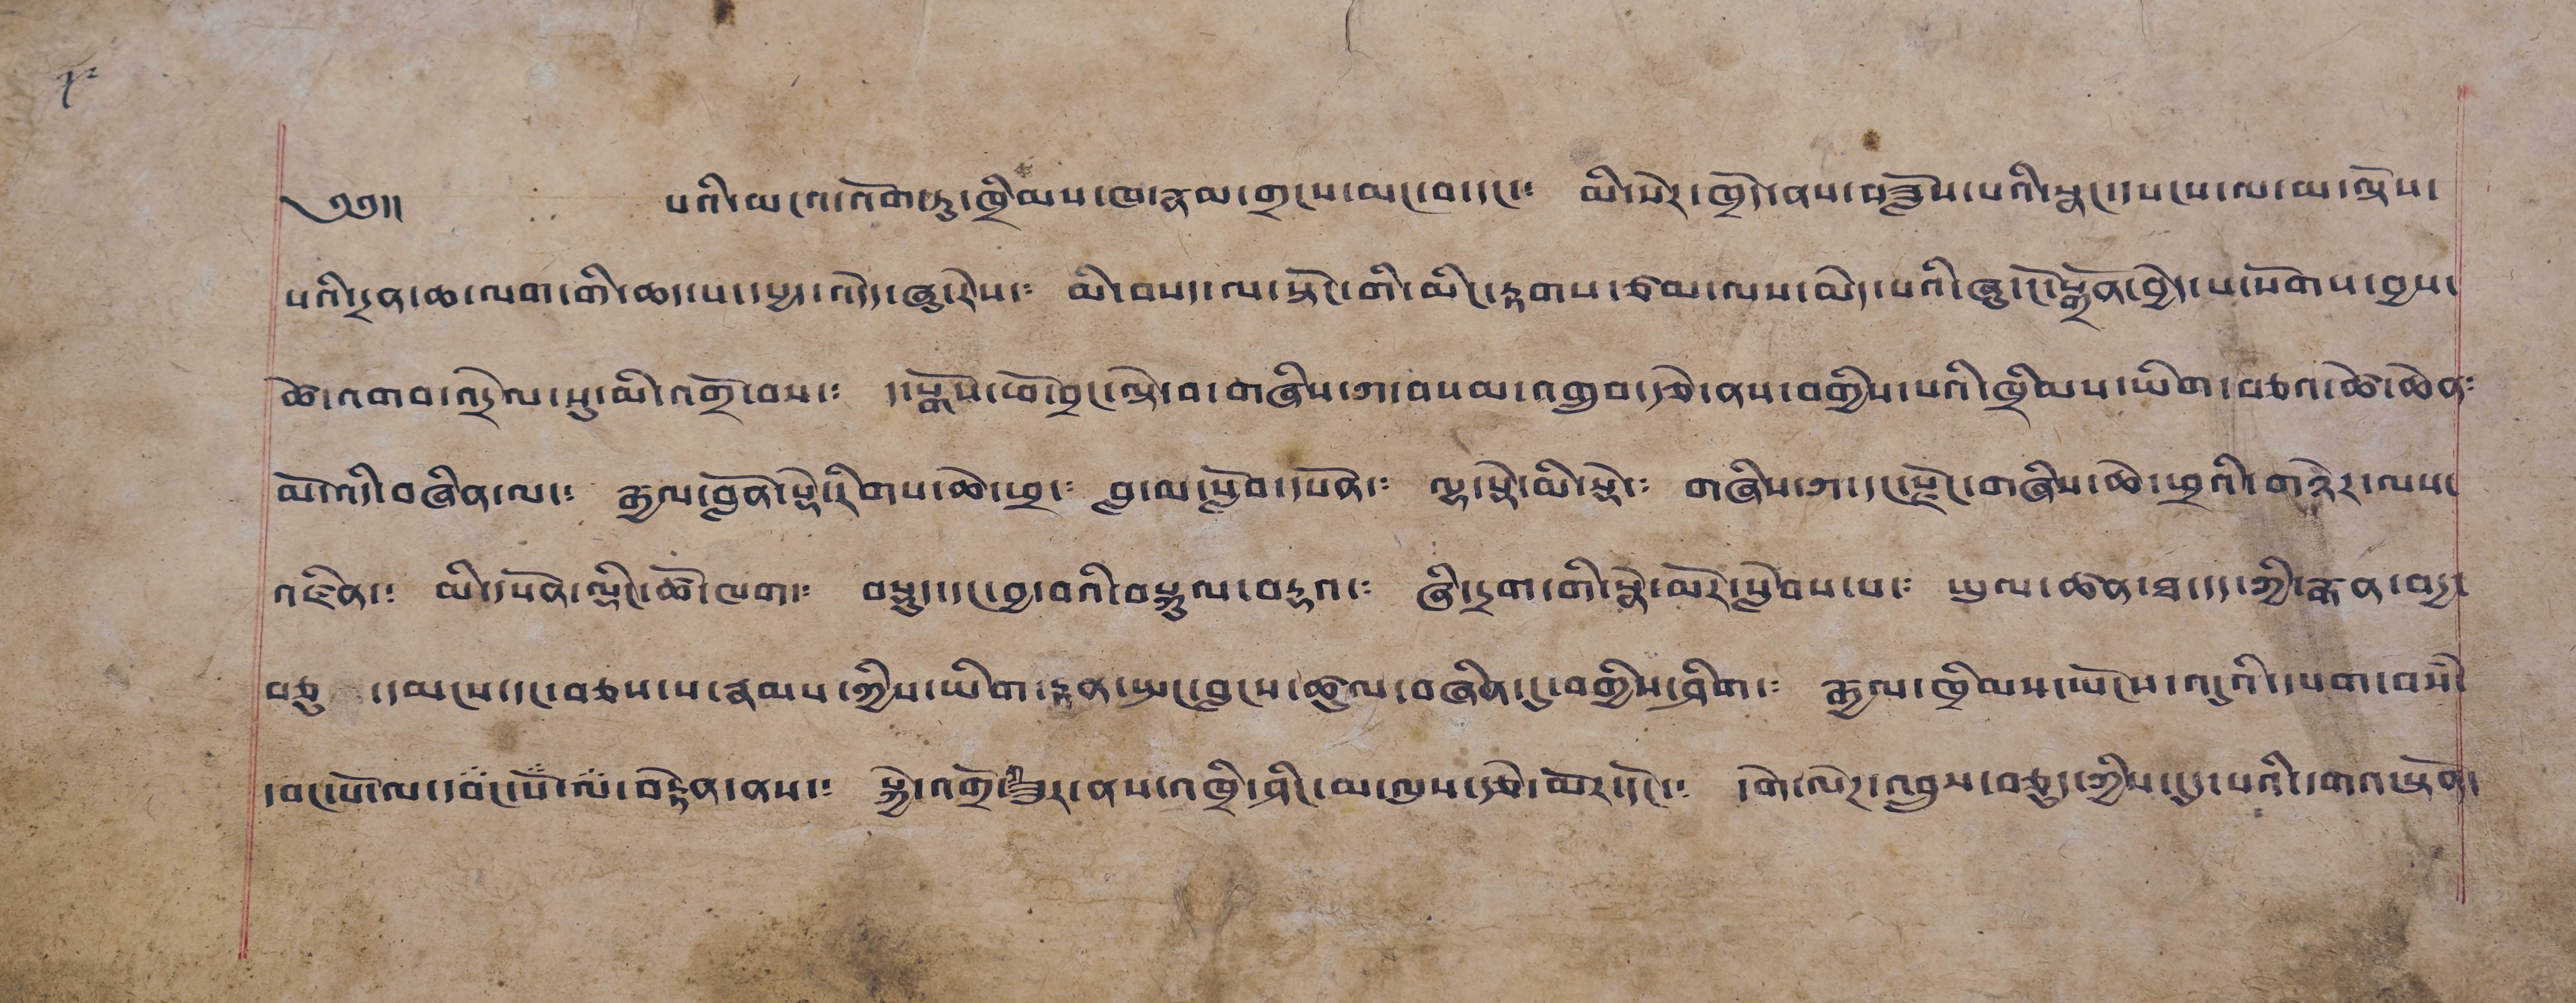༡༩
༄༅།། པའི་མངའ་འོག་ཏུ་ཁྲིམས་ཁ་རྣམ་གྲངས་མང་བ་དང་༴ མི་སེར་ཁྲོད་ནས་བཟློས་པའི་སྣང་དཔངས་ལ་མ་ལྟོས་
པའི་རྒྱན་ཆ་ལག་གི་ཆད་པ་དཔྱད་འདོད་ཞུ་རེས་༴ མི་བསད་ལ་སྟོང་གི་མིང་རྟགས་ཙམ་ལས་མེད་པའི་ཞུ་ངོ་སྒྲོན་བྱེད་པ་སོགས་བྱས་
ཚེ་འགབ་འདྲེལ་སུ་མི་འགྲོ་བས་༴ ད་སྒོས་ཕོ་བྲང་ལྟེ་བ་གཞིས་ཀ་བསམ་འགྲུབ་རྩེ་ནས་བགྱིས་པའི་ཁྲིམས་ཡིག། བཅའ་ཚེ་ཆེན༴
མོ་འདི་བཞིན་ལ་༴ རྒྱལ་བློན་སྡེ་རིགས་ཆེ་ཕྲ་༴ བླ་མ་སློབ་དཔོན་༴ ལྷ་སྡེ་མི་སྡེ་༴ གཞིས་ཀ་དང་རྫོང་གཞིས་ཆེ་ཕྲའི་གཉེར་ལས་
འཛིན་༴ མི་དཔོན་ལྡིང་ཚོ་ཁག་༴ བསྡུད་དང་བྱ་བའི་བསྐུལ་བརྡའ་༴ ཞི་དྲག་གི་སྣེ་མོར་སླེབས་པ་༴ ཡུལ་ཚན་ཐ་དད་ཀྱི་རྒན་བདྱ་
བཅུ་དམངས་དང་བཅས་པ་རྣམས་ཀྱིས་ཡིག་རྟན་སྤང་བླངས་ཚུལ་བཞིན་དུ་བགྱིས་ཤིག་༴ རྒྱལ་ཁྲིམས་ཡོངས་འདུའི་དཔག་བསཾ་
དབང་པོ་ལ་དབང་པོ་ལ་བརྟེན་ནས་༴ སྐྱེ་འགྲོ་གཟུར་ནས་འཁྲི་ཤིང་མ་ལུས་རྩེ་མོར་དོང་༴ དགེ་ལེཊ་འབྲུས་བཅུད་ཀྱིས་དུད་པའི་དགའ་སྟོན་
